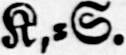K,-S.
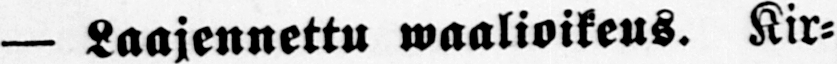— Laajennettu waalioikeus. Kir-
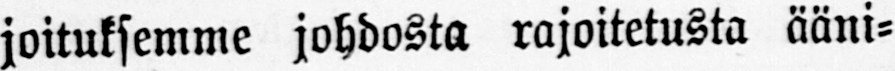joituksemme johdosta rajoitetusta ääni-
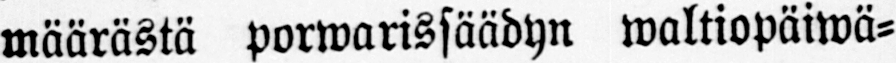määrästä porwarissäädyn waltiopäiwä-
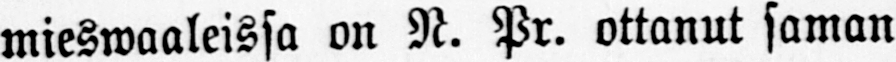mieswaaleissa on N. Pr. ottanut saman
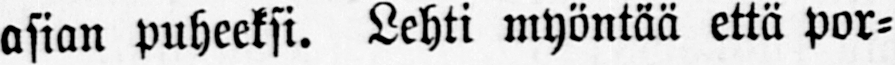asian puheeksi. Lehti myöntää että por-
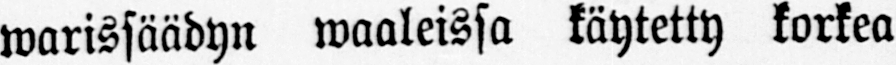warissäädyn waaleissa käytetty korkea
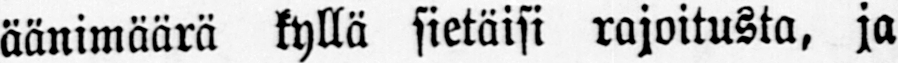äänimäärä kyllä sietäisi rajoitusta, ja
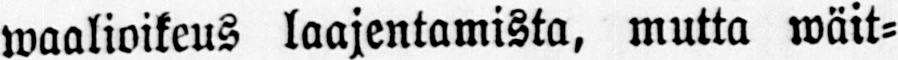waalioikeus laajentamista, mutta wäit-
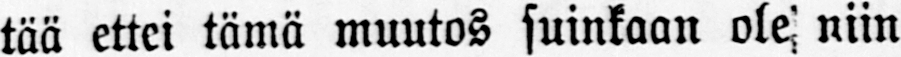tää ettei tämä muutos suinkaan ole niin
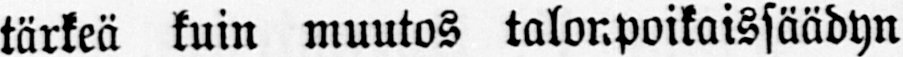tärkeä kuin muutos talonpoikaissäädyn
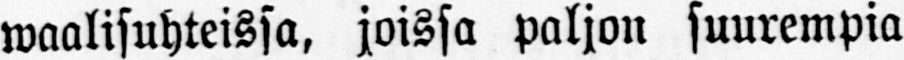waalisuhteissa, joissa paljon suurempia
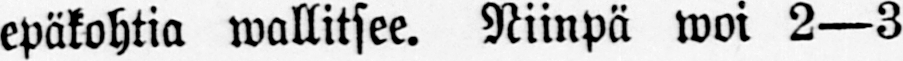epäkohtia wallitsee. Niinpä woi 2 —3
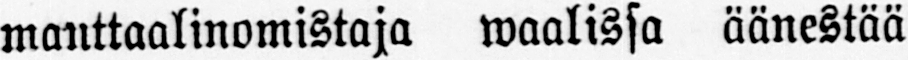manttaalinomistaja waalissa äänestää
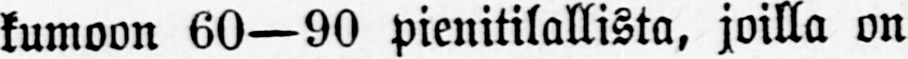kumoon 60—90 pienitilallista, joilla on
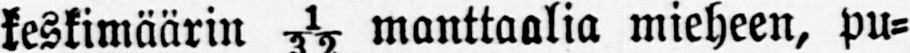keskimäärin 1/32 manttaalia mieheen, pu-
